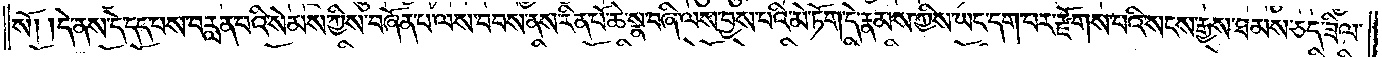སོ། །དེ་ནས་དེ་དད་པས་བརླན་པའི་སེམས་ཀྱིས་བཞོན་པ་ལས་བབས་ནས་རིན་པོ་ཆེ་སྣ་བཞི་ལས་བྱས་པའི་མེ་ཏོག་དེ་རྣམས་ཀྱིས་ཡང་དག་པར་རྫོགས་པའི་སངས་རྒྱས་ཐམས་ཅད་ཟིལ་
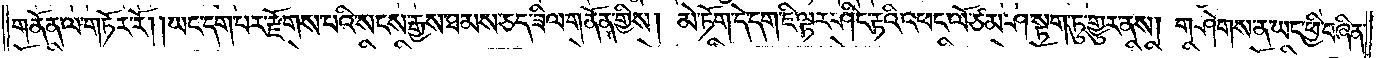གནོན་ལ་གཏོར་རོ། །ཡང་དག་པར་རྫོགས་པའི་སངས་རྒྱས་ཐམས་ཅད་ཟིལ་གནོན་གྱིས། མེ་ཏོག་དེ་དག་ཇི་ལྟར་ཤིང་རྟའི་འཕང་ལོ་ཙམ་ཤ་སྟག་ཏུ་གྱུར་ནས། གཤེགས་ན་ཡང་ཕྱི་བཞིན་
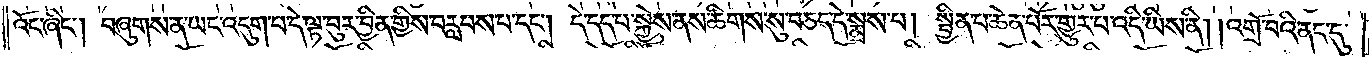འོང་ཞིང༌། བཞུགས་ན་ཡང་འདུག་པ་དེ་ལྟ་བུར་བྱིན་གྱིས་བརླབས་པ་དང༌། དེ་དད་པ་སྐྱེས་ནས་ཚིགས་སུ་བཅད་དེ་སྨྲས་པ། སྦྱིན་པ་ཆེན་པོར་གྱུར་པ་འདི་ཡིས་ནི། །འགྲོ་བའི་ནང་དུ་
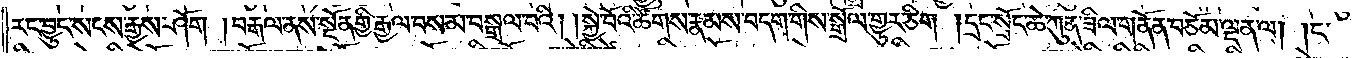རང་བྱུང་སངས་རྒྱས་ཤོག །བརྒལ་ནས་སྔོན་གྱི་རྒྱལ་བས་མ་བསྒྲལ་བའི། །སྐྱེ་བོའི་ཚོགས་རྣམས་བདག་གིས་སྒྲོལ་གྱུར་ཅིག །དྲང་སྲོང་ཆེ་ཀུན་ཟིལ་གནོན་བཅོམ་ལྡན་ལ། །ང་
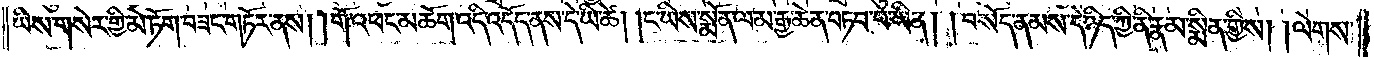ཡིས་གསེར་གྱི་མེ་ཏོག་བཟང་གཏོར་ནས། །གོ་འཕང་མཆོག་འདི་འདོད་ནས་དེ་ཡི་ཚེ། །ང་ཡིས་སྨོན་ལམ་རྒྱ་ཆེན་བཏབ་པ་ཡིན། །བསོད་ནམས་དེ་ཉིད་ཀྱི་ནི་རྣམ་སྨིན་གྱིས། །ལེགས་
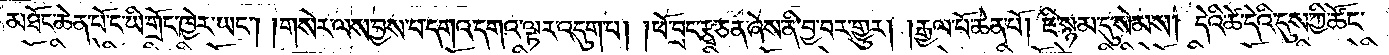མཐོང་ཆེན་པོ་ང་ཡི་གྲོང་ཁྱེར་ཡང༌། །གསེར་ལས་བྱས་པ་དགའ་དགའ་ལྟར་འདུག་པ། །ཕོ་བྲང་རྩྭ་ཅན་ཞེས་ནི་བྱ་བར་གྱུར། །རྒྱལ་པོ་ཆེན་པོ། ཇི་སྙམ་དུ་སེམས། དེའི་ཚེ་དེའི་དུས་ཀྱི་ཚོང་
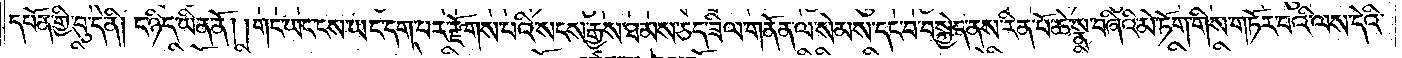དཔོན་གྱི་བུ་དེ་ནི། ང་ཉིད་ཡིན་ནོ། །གང་ཡང་ངས་ཡང་དག་པར་རྫོགས་པའི་སངས་རྒྱས་ཐམས་ཅད་ཟིལ་གནོན་ལ་སེམས་དང་བ་བསྐྱེད་ནས་རིན་པོ་ཆེ་སྣ་བཞིའི་མེ་ཏོག་གིས་གཏོར་བའི་ལས་དེའི་
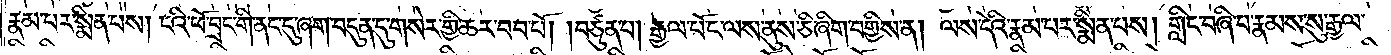རྣམ་པར་སྨིན་པས། ངའི་ཕོ་བྲང་གི་ནང་དུ་ཞག་བདུན་དུ་གསེར་གྱི་ཆར་བབ་པོ། །བཙུན་པ། རྒྱལ་པོ་ང་ལས་ནུས་ཅི་ཞིག་བགྱིས་ན། ལས་དེའི་རྣམ་པར་སྨིན་པས། གླིང་བཞི་པ་རྣམས་སུ་རྒྱལ་
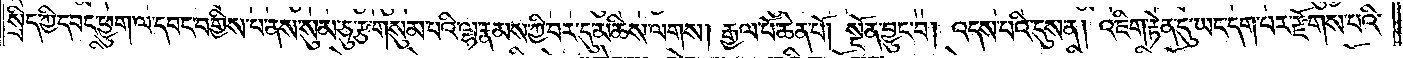སྲིད་ཀྱི་དབང་ཕྱུག་ལ་དབང་བགྱིས་པ་ནས་སུམ་ཅུ་རྩ་གསུམ་པའི་ལྷ་རྣམས་ཀྱི་བར་དུ་མཆིས་ལགས། རྒྱལ་པོ་ཆེན་པོ། སྔོན་བྱུང་བ། འདས་པའི་དུས་ན། འཇིག་རྟེན་དུ་ཡང་དག་པར་རྫོགས་པའི་
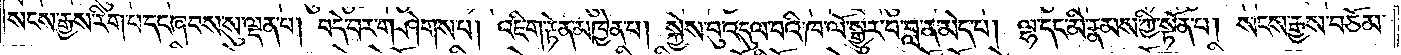སངས་རྒྱས་རིག་པ་དང་ཞབས་སུ་ལྡན་པ། བདེ་བར་གཤེགས་པ། འཇིག་རྟེན་མཁྱེན་པ། སྐྱེས་བུ་འདུལ་བའི་ཁ་ལོ་སྒྱུར་བ་བླ་ན་མེད་པ། ལྷ་དང་མི་རྣམས་ཀྱི་སྟོན་པ། སངས་རྒྱས་བཅོམ་
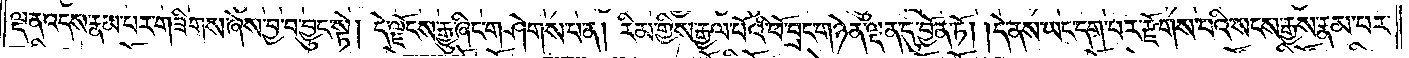ལྡན་འདས་རྣམ་པར་གཟིགས་ཞེས་བྱ་བ་བྱུང་སྟེ། དེ་ལྗོངས་རྒྱུ་ཞིང་གཤེགས་པ་ན། རིམ་གྱིས་རྒྱལ་པོའི་ཕོ་བྲང་གཉེན་ལྡན་དུ་བྱོན་ཏོ། །དེ་ནས་ཡང་དག་པར་རྫོགས་པའི་སངས་རྒྱས་རྣམ་པར་
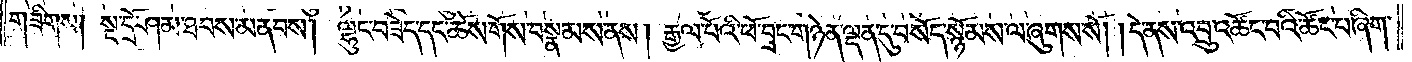གཟིགས། སྔ་དྲོ་ཤམ་ཐབས་མནབས། ལྷུང་བཟེད་དང་ཆོས་གོས་བསྣམས་ནས། རྒྱལ་པོའི་ཕོ་བྲང་གཉེན་ལྡན་དུ་བསོད་སྙོམས་ལ་ཞུགས་སོ། །དེ་ནས་འབྲུ་འཚོང་བའི་ཚོང་པ་ཞིག་
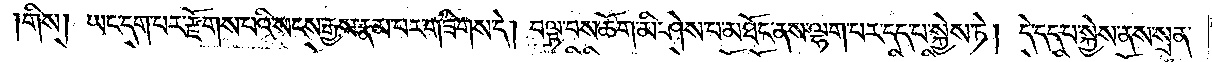།གིས། ཡང་དག་པར་རྫོགས་པའི་སངས་རྒྱས་རྣམ་པར་གཟིགས་དེ། བལྟ་བས་ཆོག་མི་ཤེས་པ་མཐོང་ནས་ལྷག་པར་དད་པ་སྐྱེས་ཏེ། དེ་དད་པ་སྐྱེས་ནས་སྲན་
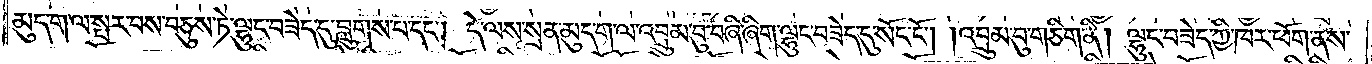མུད་ག་ལ་སྤར་བས་བཅུས་ཏེ་ལྷུང་བཟེད་དུ་བླུགས་པ་དང༌། དེ་ལས་སྲན་མུད་ག་ལ་འབྲུམ་བུ་བཞི་ཞིག་ལྷུང་བཟེད་དུ་སོང་ངོ༌། །འབྲུམ་བུ་གཅིག་ནི། ལྷུང་བཟེད་ཀྱི་ཁར་ཕོག་ནས་
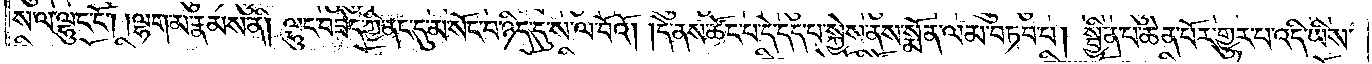ས་ལ་ལྷུང་ངོ༌། །ལྷག་མ་རྣམས་ནི། ལྷུང་བཟེད་ཀྱི་ནང་དུ་མ་སོང་བ་ཉིད་དུ་ས་ལ་བོའོ། །དེ་ནས་ཚོང་པ་དེ་དད་པ་སྐྱེས་ནས་སྨོན་ལམ་བཏབ་པ། སྦྱིན་པ་ཆེན་པོར་གྱུར་པ་འདི་ཡིས་
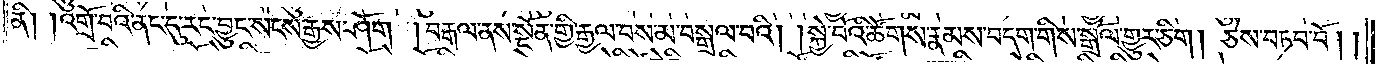ནི། །འགྲོ་བའི་ནང་དུ་རང་བྱུང་སངས་རྒྱས་ཤོག །བརྒལ་ནས་སྔོན་གྱི་རྒྱལ་བས་མ་བསྒྲལ་བའི། །སྐྱེ་བོའི་ཚོགས་རྣམས་བདག་གིས་སྒྲོལ་གྱུར་ཅིག། ཅེས་བཏབ་བོ། །
